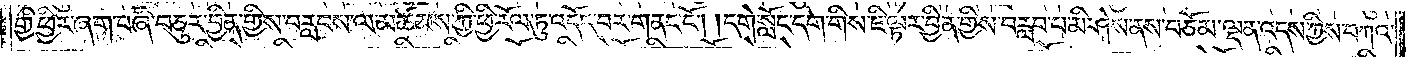གྱི་ཕྱིར་ཞག་བཞི་བཅུར་བྱིན་གྱིས་བརླབས་ལ་མཚམས་ཀྱི་ཕྱི་རོལ་ཏུ་འདོད་བར་གནང་ངོ༌། །དགེ་སློང་དག་གིས་ཇི་ལྟར་བྱིན་གྱིས་བརླབ་པ་མི་ཤེས་ནས་བཅོམ་ལྡན་འདས་ཀྱིས་བཀའ་
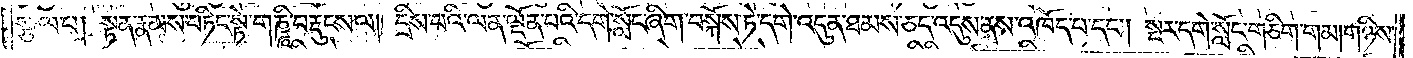སྩལ་པ། སྟན་རྣམས་བཏིང་སྟེ་གཎྜཱི་བརྡུངས་ལ། དྲིས་པའི་ལན་ལྡོན་པའི་དགེ་སློང་ཞིག་བསྐོས་ཏེ་དགེ་འདུན་ཐམས་ཅད་འདུས་ནས་འཁོད་པ་དང༌། སྔར་དགེ་སློང་གཅིག་གམ། གཉིས་
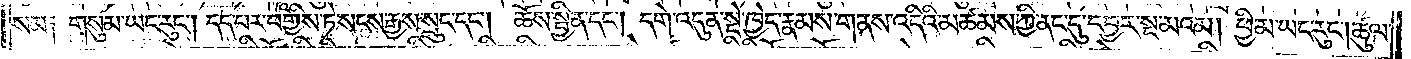སམ༑ གསུམ་ཡང་རུང༌། དད་པར་བགྱིས་ཏེ་སངས་རྒྱས་སྲུང་དང༌། ཆོས་སྦྱིན་དང༌། དགེ་འདུན་སྡེ་ཁྱེད་རྣམས་གནས་འདིའི་མཚམས་ཀྱི་ནང་དུ་དབྱར་སྔ་མའམ། ཕྱི་མ་ཡང་རུང༌། ཚུལ་
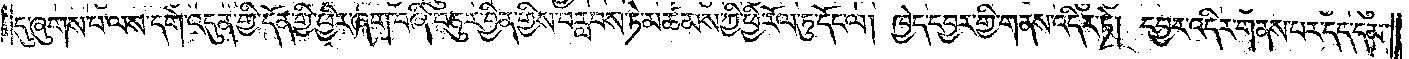དུ་ཞུགས་པ་ལས་དགེ་འདུན་གྱི་དོན་གྱི་ཕྱིར་ཞག་བཞི་བཅུར་བྱིན་གྱིས་བརླབས་ཏེ་མཚམས་ཀྱི་ཕྱི་རོལ་ཏུ་དོང་ལ། ཁྱེད་དབྱར་གྱི་གནས་འདིར་ཏེ། དབྱར་འདིར་གནས་པར་དད་དམ་
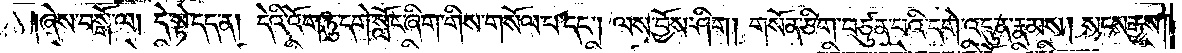ཞེས་བསྒོ་ལ། དེ་སྟེ་དད་ན། དེའི་འོག་ཏུ་དགེ་སློང་ཞིག་གིས་གསོལ་པ་དང༌། ལས་བྱོས་ཤིག །གསོན་ཅིག་བཙུན་པའི་དགེ་འདུན་རྣམས། སངས་རྒྱས་
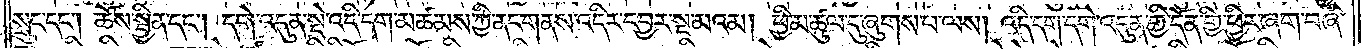སྲུང་དང༌། ཆོས་སྦྱིན་དང༌། དགེ་འདུན་སྡེ་འདི་དག་མཚམས་ཀྱི་ནང་གནས་འདིར་དབྱར་སྔ་མའམ། ཕྱི་མ་ཚུལ་དུ་ཞུགས་པ་ལས། འདི་དག་དགེ་འདུན་གྱི་དོན་གྱི་ཕྱིར་ཞག་བཞི་
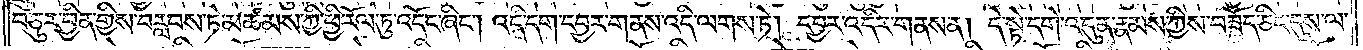བཅུར་བྱིན་གྱིས་བརླབས་ཏེ་མཚམས་ཀྱི་ཕྱི་རོལ་ཏུ་འདོང་ཞིང༌། འདི་དག་དབྱར་གནས་འདི་ལགས་ཏེ། དབྱར་འདིར་གནས་ན། དེ་སྟེ་དགེ་འདུན་རྣམས་ཀྱིས་བཟོད་ཅིང་དུས་ལ་
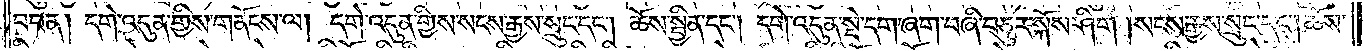བབ་ན། དགེ་འདུན་གྱིས་གནོངས་ལ། དགེ་འདུན་གྱིས་སངས་རྒྱས་སྲུང་དང༌། ཆོས་སྦྱིན་དང༌། དགེ་འདུན་སྡེ་དག་ཞག་བཞི་བཅུར་སྐོས་ཤིག །སངས་རྒྱས་སྲུང་དང༌། ཆོས་
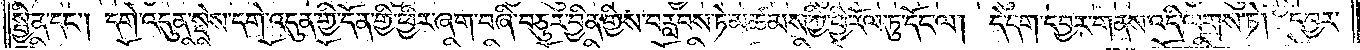སྦྱིན་དང༌། དགེ་འདུན་སྡེས་དགེ་འདུན་གྱི་དོན་གྱི་ཕྱིར་ཞག་བཞི་བཅུར་བྱིན་གྱིས་བརླབས་ཏེ་མཚམས་ཀྱི་ཕྱི་རོལ་ཏུ་དོང་ལ། དེ་དག་དབྱར་གནས་འདི་ལགས་ཏེ། དབྱར་
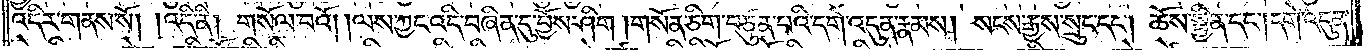འདིར་གནས་སོ། །འདི་ནི། གསོལ་བའོ། །ལས་ཀྱང་འདི་བཞིན་དུ་བྱོས་ཤིག །གསོན་ཅིག་བཙུན་པའི་དགེ་འདུན་རྣམས། སངས་རྒྱས་སྲུང་དང༌། ཆོས་སྦྱིན་དང༌། དགེ་འདུན་
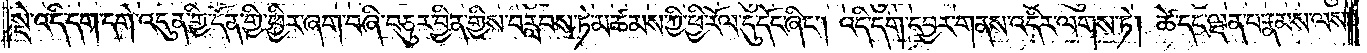སྡེ་འདི་དག་དགེ་འདུན་གྱི་དོན་གྱི་ཕྱིར་ཞག་བཞི་བཅུར་བྱིན་གྱིས་བརླབས་ཏེ་མཚམས་ཀྱི་ཕྱི་རོལ་དུ་དོང་ཞིང༌། འདི་དག་དབྱར་གནས་འདིར་ལགས་ཏེ། ཚེ་དང་ལྡན་པ་རྣམས་ལས།
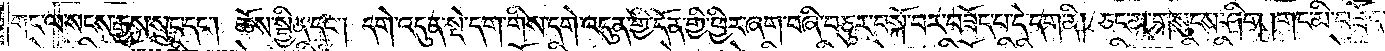གང་ལ་སངས་རྒྱས་སྲུང་དང༌། ཆོས་སྦྱིན་དང༌། དགེ་འདུན་སྡེ་དག་གིས་དགེ་འདུན་གྱི་དོན་གྱི་ཕྱིར་ཞག་བཞི་བཅུར་བསྐོ་བར་བཟོད་པ་དེ་དག་ནི། ཅང་མ་གསུངས་ཤིག །གང་མི་བཟོད་
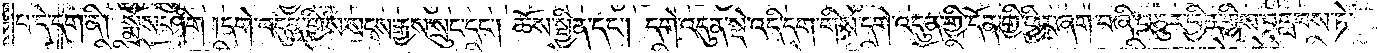པ་དེ་དག་ནི། སྨྲོས་ཤིག །དགེ་འདུན་གྱིས་སངས་རྒྱས་སྲུང་དང༌། ཆོས་སྦྱིན་དང༌། དགེ་འདུན་སྡེ་འདི་དག་གིས་དགེ་འདུན་གྱི་དོན་གྱི་ཕྱིར་ཞག་བཞི་བཅུར་བྱིན་གྱིས་བརླབས་ཏེ་
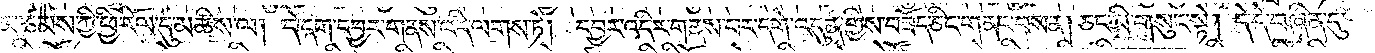མཚམས་ཀྱི་ཕྱི་རོལ་དུ་མཆིས་ལ། དེ་དག་དབྱར་གནས་འདི་ལགས་ཏེ། དབྱར་འདིར་གནས་པར་དགེ་འདུན་གྱིས་བཟོད་ཅིང་གནང་བས་ན། ཅང་མི་གསུང་སྟེ། དེ་དེ་བཞིན་དུ་
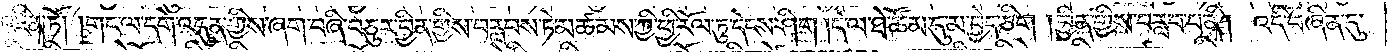འཛིན་ཏོ། །གང་ལ་དགེ་འདུན་གྱིས་ཞག་བཞི་བཅུར་བྱིན་གྱིས་བརླབས་ཏེ་མཚམས་ཀྱི་ཕྱི་རོལ་ཏུ་དེངས་ཤིག །དེ་ལ་ཐེ་ཚོམ་དུ་མ་བྱེད་ཅིག། བྱིན་གྱིས་བརླབ་པ་ནི། འདི་བཞིན་དུ་
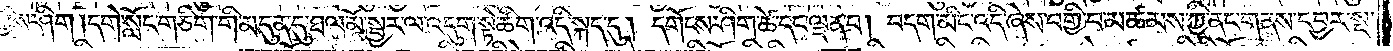གྱིས་ཤིག །དགེ་སློང་གཅིག་གི་མདུན་དུ་ཐལ་མོ་སྦྱར་ལ་འདུག་སྟེ་ཚིག་འདི་སྐད་དུ། དགོངས་ཤིག་ཚེ་དང་ལྡན་པ། བདག་མིང་འདི་ཞེས་བགྱི་བ་མཚམས་ཀྱི་ནང་གནས་དབྱར་སྔ་
